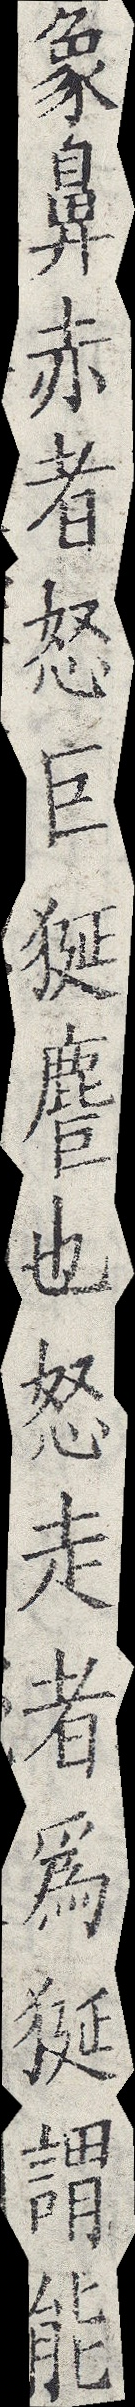象鼻赤者怒巨狿𪊤也怒走者為狿謂能
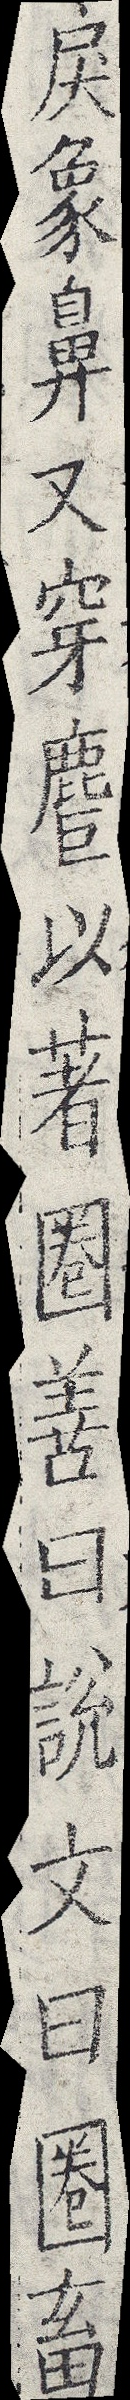戾象鼻又穿𪊤以著圈善曰說文曰圈畜
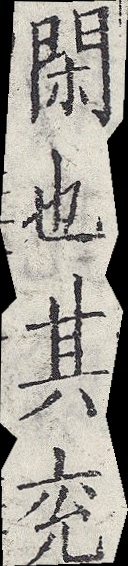閑也其兗
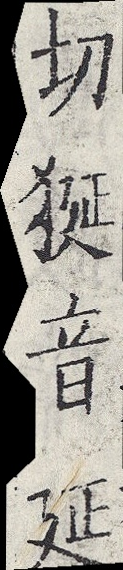切狿音延
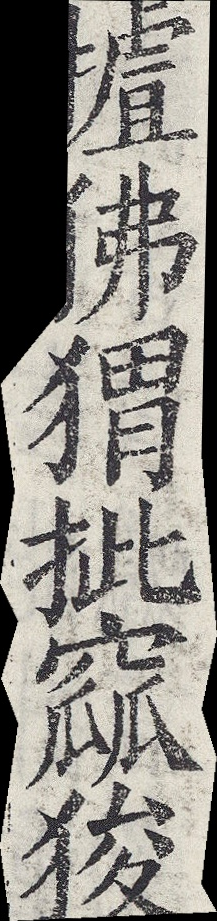摣狒猬㧗窳狻
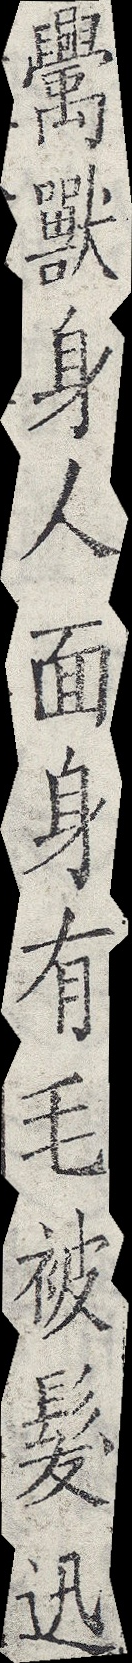𥝊獸身人面身有毛被髮迅
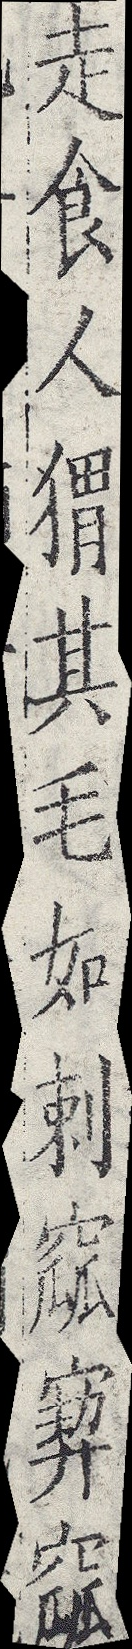走食人猬其毛如刺窳窫窳
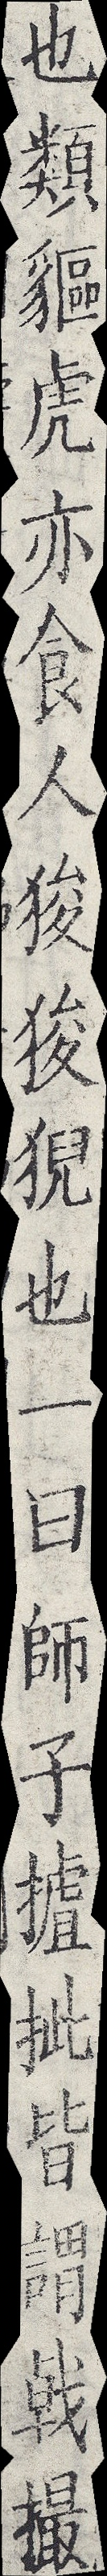也類貙虎亦食人狻狻猊也一曰師子摣㧗皆謂戟撮
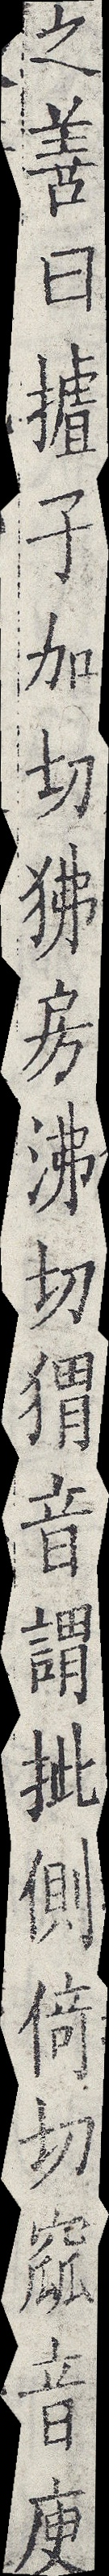之善曰摣子加切狒房沸切猬音謂㧗側倚切窳音庾
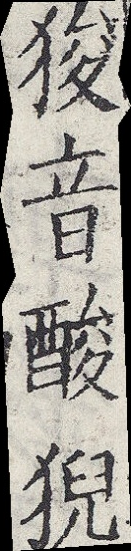狻音酸猊
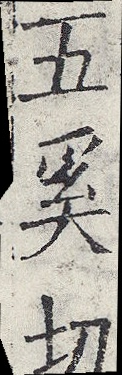五奚切
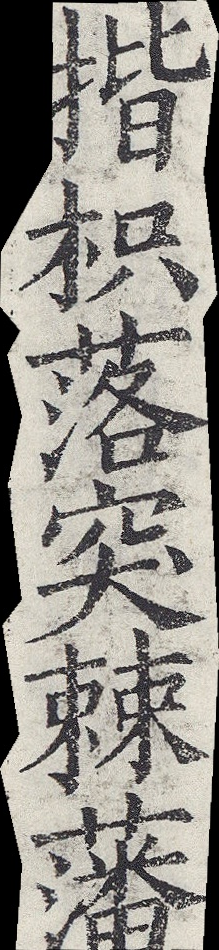揩枳落突棘藩
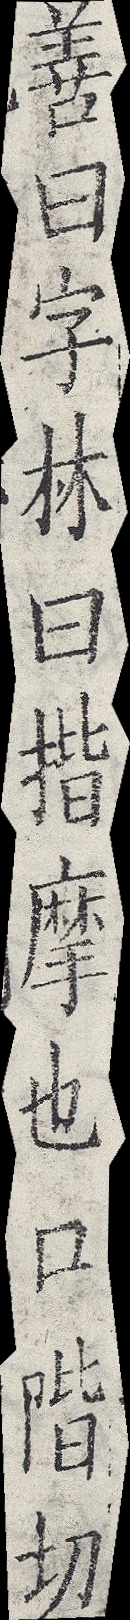善曰字林曰揩摩也口階切
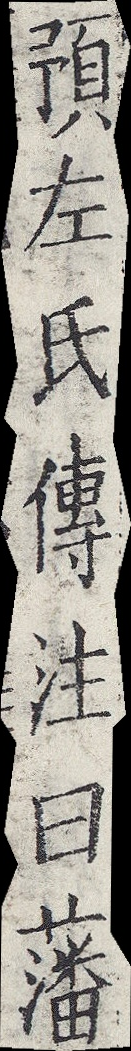預左氏傳注曰藩
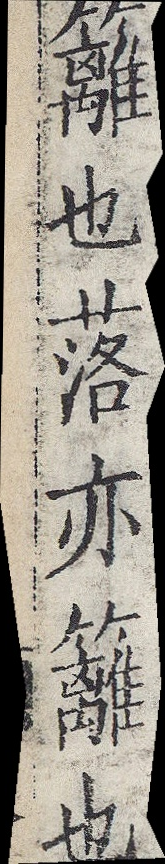籬也落亦籬也
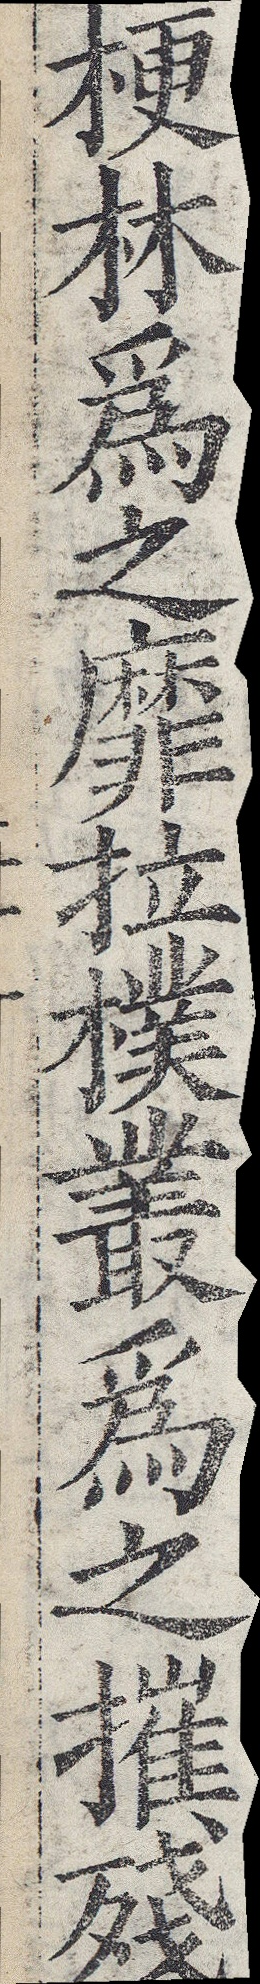梗林為之靡拉樸叢為之摧殘
